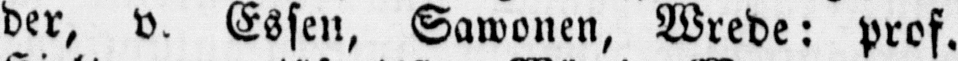der, v. Essen, Sawonen, Wrede: prof.
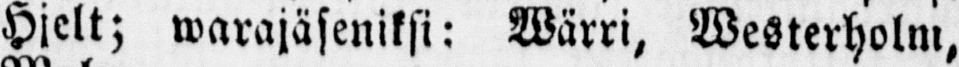Hjelt; warajäseniksi: Wärri, Westerholm,
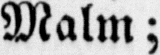Malm;
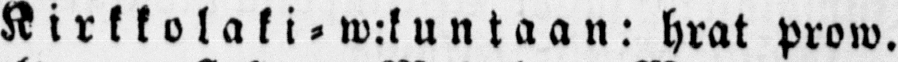Kirkkolaki - w:kuntaan: hrat prow-
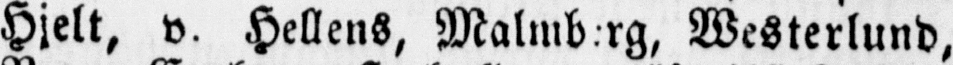Hjelt, v. Hellens, Malmberg, Westerlund,
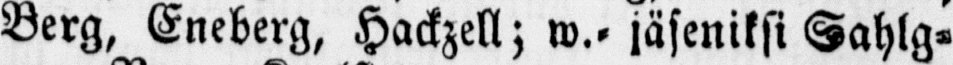Berg, Eneberg, Hackzell; w.- jäseniksi Sahlg-
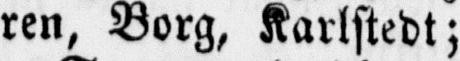ren, Borg, Karlstedt;
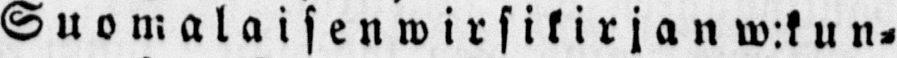Suomalaisenwirsikir jan w:kun-
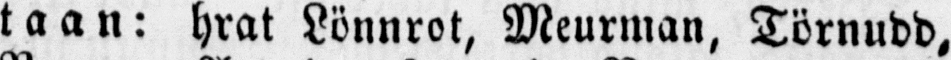taan: hrat Lönnrot, Meurman, Törnudd,
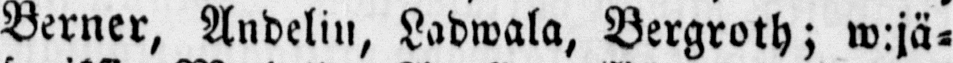Berner, Andelin, Ladwala, Bergroth; w:jä-
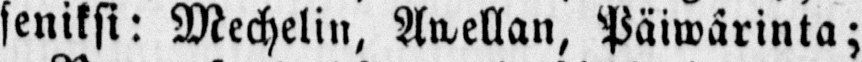seniksi: Mechelin, Awellan, Päiwärinta;
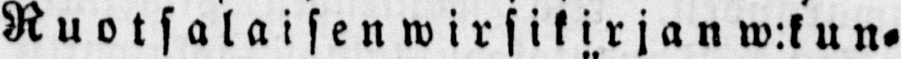Ruotsalaisenwirsikirjanw:kun-
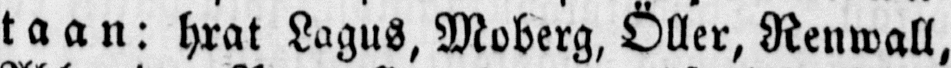taan: hrat Lagus, Moberg, Öller, Renwall,
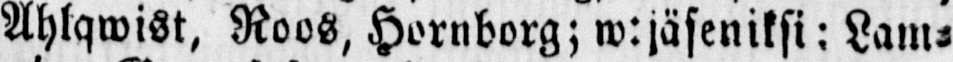Ahlqlvist, Roos, Hornborg; w:jäseniksi: Lam-
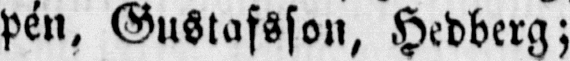pén, Gustafsson, Hedberg;
